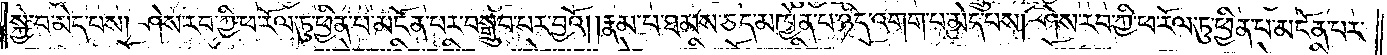སྐྱེ་བ་མེད་པས། ཤས་རབ་ཀྱི་ཕ་རོལ་ཏུ་ཕྱིན་པ་མངོན་པར་བསྒྲུབ་པར་བྱའོ། །རྣམ་པ་ཐམས་ཅད་མཁྱེན་པ་ཉིད་འགག་པ་མེད་པས། ཤེས་རབ་ཀྱི་ཕ་རོལ་ཏུ་ཕྱིན་པ་མངོན་པར་
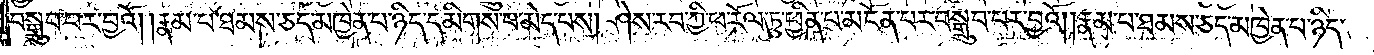བསྒྲུབ་པར་བྱའོ། །རྣམ་པ་ཐམས་ཅད་མཁྱེན་པ་ཉིད་དམིགས་པ་མེད་པས། ཤེས་རབ་ཀྱི་ཕ་རོལ་ཏུ་ཕྱིན་པ་མངོན་པར་བསྒྲུབ་པར་བྱའོ། །རྣམ་པ་ཐམས་ཅད་མཁྱེན་པ་ཉིད་
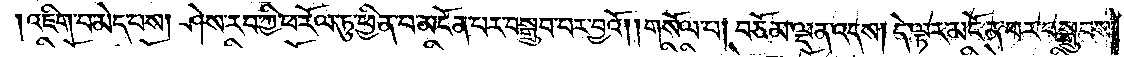འཇིག་པ་མེད་པས། ཤེས་རབ་ཀྱི་ཕ་རོལ་ཏུ་ཕྱིན་པ་མངོན་པར་བསྒྲུབ་པར་བྱའོ། །གསོལ་པ། བཅོམ་ལྡན་འདས། དེ་ལྟར་མངོན་པར་བསྒྲུབས་
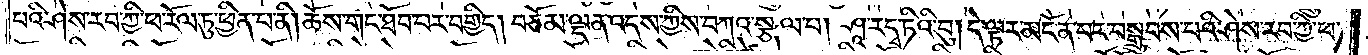པའི་ཤེས་རབ་ཀྱི་ཕ་རོལ་ཏུ་ཕྱིན་པ་ནི། ཆོས་གང་ཐོབ་པར་བགྱིད། བཅོམ་ལྡན་འདས་ཀྱིས་བཀའ་སྩལ་པ། ཤཱ་ར་དྭ་ཏིའི་བུ། དེ་ལྟར་མངོན་པར་བསྒྲུབས་པའི་ཤེས་རབ་ཀྱི་ཕ་
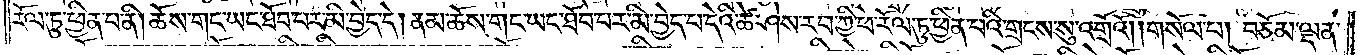རོལ་ཏུ་ཕྱིན་པ་ནི། ཆོས་གང་ཡང་ཐོབ་པར་མི་བྱེད་དེ། ནམ་ཆོས་གང་ཡང་ཐོབ་པར་མི་བྱེད་པ་དེའི་ཚེ་ཤེས་རབ་ཀྱི་ཕ་རོལ་ཏུ་ཕྱིན་པའི་གྲངས་སུ་འགྲོའོ། །གསོལ་པ། བཅོམ་ལྡན་
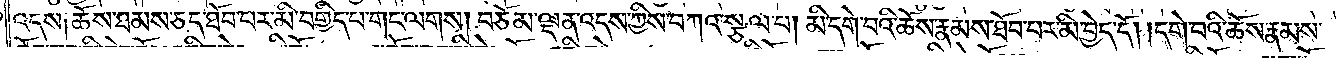འདས༑ ཆོས་ཐམས་ཅད་ཐོབ་པར་མི་བགྱིད་པ་གང་ལགས། བཅོམ་ལྡན་འདས་ཀྱིས་བཀའ་སྩལ་པ། མི་དགེ་བའི་ཆོས་རྣམས་ཐོབ་པར་མི་བྱེད་དོ། །དགེ་བའི་ཆོས་རྣམས་
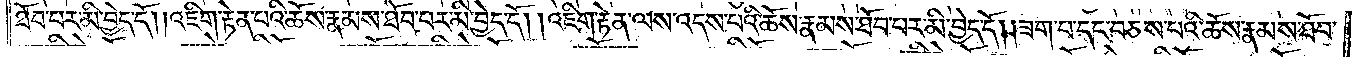ཐོབ་པར་མི་བྱེད་དོ། །འཇིག་རྟེན་པའི་ཆོས་རྣམས་ཐོབ་པར་མི་བྱེད་དོ། །འཇིག་རྟེན་ལས་འདས་པའི་ཆོས་རྣམས་ཐོབ་པར་མི་བྱེད་དོ། །ཟག་པ་དང་བཅས་པའི་ཆོས་རྣམས་ཐོབ་
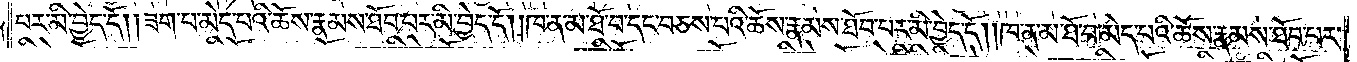པར་མི་བྱེད་དོ། །ཟག་པ་མེད་པའི་ཆོས་རྣམས་ཐོབ་པར་མི་བྱེད་དོ། །ཁ་ན་མ་ཐོ་བ་དང་བཅས་པའི་ཆོས་རྣམས་ཐོབ་པར་མི་བྱེད་དོ། །ཁ་ན་མ་ཐོ་བ་མེད་པའི་ཆོས་རྣམས་ཐོབ་པར་
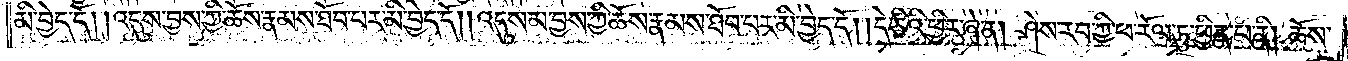མི་བྱེད་དོ། །འདུས་བྱས་ཀྱི་ཆོས་རྣམས་ཐོབ་པར་མི་བྱེད་དོ། །འདུས་མ་བྱས་ཀྱི་ཆོས་རྣམས་ཐོབ་པར་མི་བྱེད་དོ། །དེ་ཅིའི་ཕྱིར་ཞེ་ན། ཤེས་རབ་ཀྱི་ཕ་རོལ་ཏུ་ཕྱིན་པ་ནི། ཆོས་
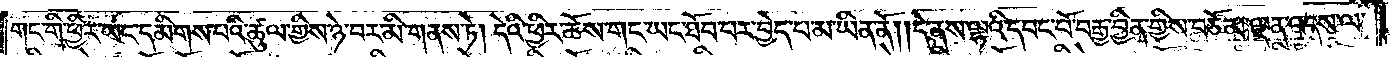གང་གི་ཕྱིར་ཡང་དམིགས་པའི་ཚུལ་གྱིས་ཉེ་བར་མི་གནས་ཏེ། དེའི་ཕྱིར་ཆོས་གང་ཡང་ཐོབ་པར་བྱེད་པ་མ་ཡིན་ནོ། །དེ་ནས་ལྷའི་དབང་པོ་བརྒྱ་བྱིན་གྱིས་བཅོམ་ལྡན་འདས་ལ་
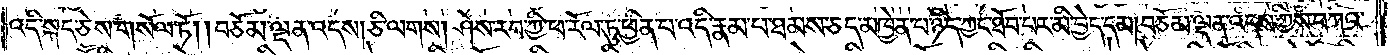འདི་སྐད་ཅེས་གསོལ་ཏོ། །བཅོམ་ལྡན་འདས། ཅི་ལགས། ཤེས་རབ་ཀྱི་ཕ་རོལ་ཏུ་ཕྱིན་པ་འདི་རྣམ་པ་ཐམས་ཅད་མཁྱེན་པ་ཉིད་ཀྱང་ཐོབ་པར་མི་བྱེད་དམ། བཅོམ་ལྡན་འདས་ཀྱིས་བཀའ་
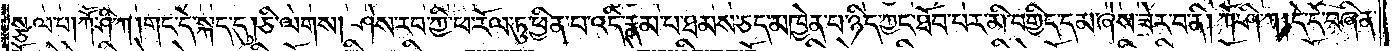སྩལ་པ། ཀཽ་ཤི་ཀ། གང་དེ་སྐད་དུ། ཅི་ལགས། ཤེས་རབ་ཀྱི་ཕ་རོལ་ཏུ་ཕྱིན་པ་འདི་རྣམ་པ་ཐམས་ཅད་མཁྱེན་པ་ཉིད་ཀྱང་ཐོབ་པར་མི་བགྱིད་དམ་ཞེས་ཟེར་བ་ནི། ཀཽ་ཤི་ཀ། དེ་དེ་བཞིན་
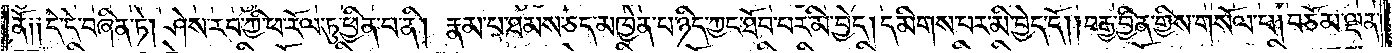ནོ༑ ༑དེ་དེ་བཞིན་ཏེ། ཤེས་རབ་ཀྱི་ཕ་རོལ་ཏུ་ཕྱིན་པ་ནི། རྣམ་པ་ཐམས་ཅད་མཁྱེན་པ་ཉིད་ཀྱང་ཐོབ་པར་མི་བྱེད། དམིགས་པར་མི་བྱེད་དོ། །བརྒྱ་བྱིན་གྱིས་གསོལ་པ། བཅོམ་ལྡན་
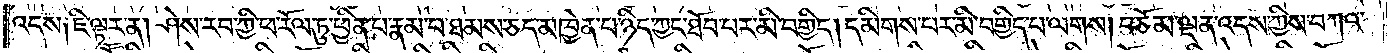འདས༑ ཇི་ལྟར་ན། ཤེས་རབ་ཀྱི་ཕ་རོལ་ཏུ་ཕྱིན་པ་རྣམ་པ་ཐམས་ཅད་མཁྱེན་པ་ཉིད་ཀྱང་ཐོབ་པར་མི་བགྱིད། དམིགས་པར་མི་བགྱིད་པ་ལགས། བཅོམ་ལྡན་འདས་ཀྱིས་བཀའ་
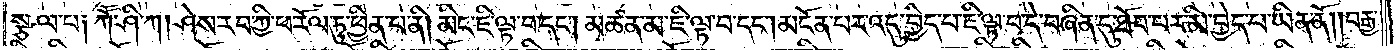སྩལ་པ༑ ཀཽ་ཤི་ཀ། ཤེས་རབ་ཀྱི་ཕ་རོལ་ཏུ་ཕྱིན་པ་ནི། མིང་ཇི་ལྟ་བ་དང༌། མཚན་མ་ཇི་ལྟ་བ་དང༌། མངོན་པར་འདུ་བྱེད་པ་ཇི་ལྟ་བ་དེ་བཞིན་དུ་ཐོབ་པར་མི་བྱེད་པ་ཡིན་ནོ། །བརྒྱ་
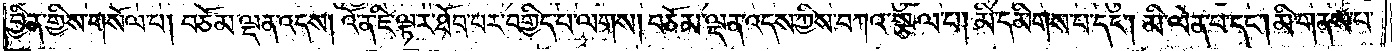བྱིན་གྱིས་གསོལ་པ། བཅོམ་ལྡན་འདས། འོ་ན་ཇི་ལྟར་ཐོབ་པར་བགྱིད་པ་ལགས། བཅོམ་ལྡན་འདས་ཀྱིས་བཀའ་སྩལ་པ། མི་དམིགས་པ་དང༌། མི་ལེན་པ་དང༌། མི་གནས་པ་
